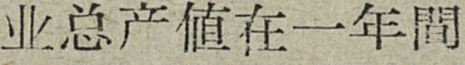业总产值在一年間
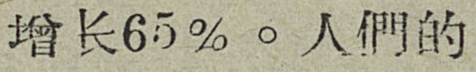增长65％。人們的
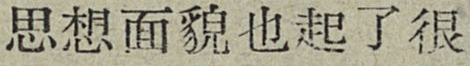思想面貌也起了很
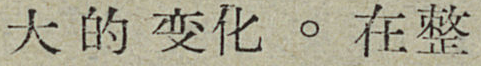大的变化。在整
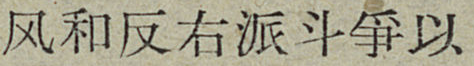风和反右派斗爭以
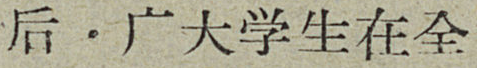后，广大学生在全
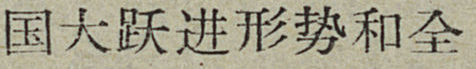国大跃进形势和全
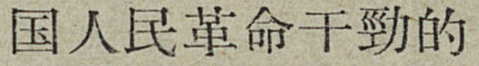国人民革命干勁的
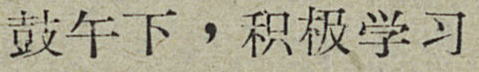鼓午下，积极学习
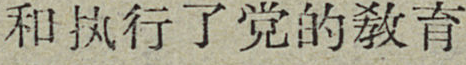和执行了党的敎育
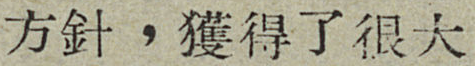方針，獲得了很大
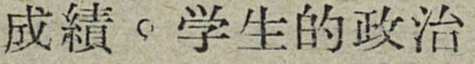成績。学生的政治
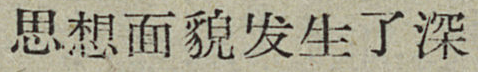思想面貌发生了深
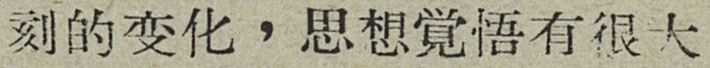刻的变化，思想覚悟有很大
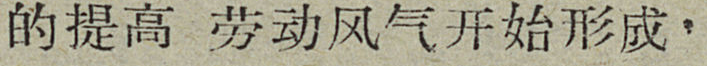的提高 劳动风气开始形成，
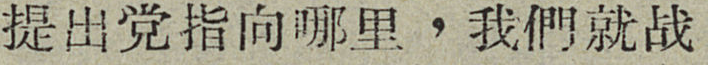提出党指向那里，我們就战
